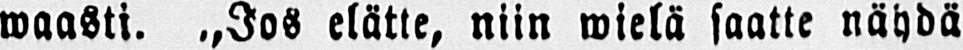waasti. ˶Jos elätte, niin wielä saatte nähdä
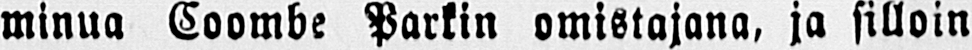minua Coombe Parkin omistajana, ja silloin
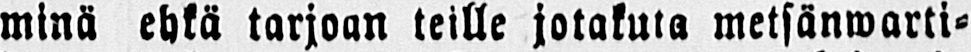minä ehkä tarjoan teille jotakuta metsänwarti-
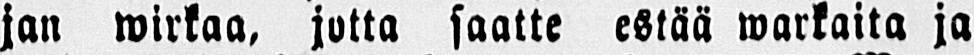jan wirkaa, jotta saatte estää warkaita ja
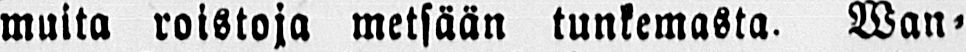muita roistoja metsään tunkemasta. Wan-
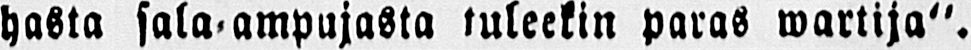hasta sala-ampujasta tuleekin paras wartija".
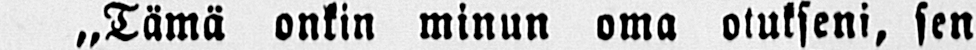˶Tämä onkin minun oma otukseni, sen
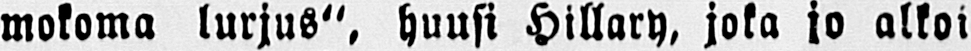mokoma lurjus", huusi Hillary, joka jo alkoi
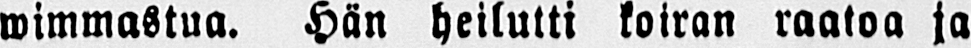wimmastua. Hän heilutti koiran raatoa ja
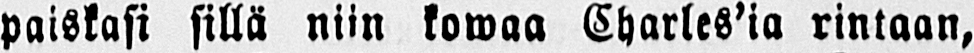paiskasi sillä niin kowaa Charles'ia rintaan,
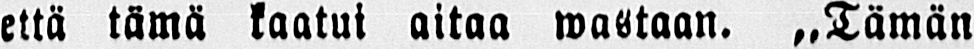että tämä kaatui aitaa wastaan. ˶Tämän
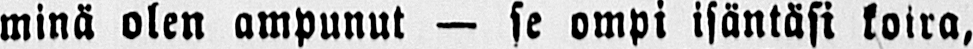minä olen ampunut — se ompi isäntäsi koira,
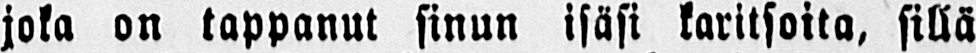joka on tappanut sinun isäsi karitsoita, sillä
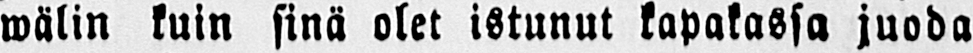wälin kuin sinä olet istunut kapakassa juoda
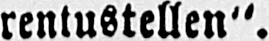rentustellen".
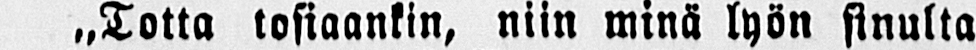˶Totta tosiaankin, niin minä lyön sinulta
